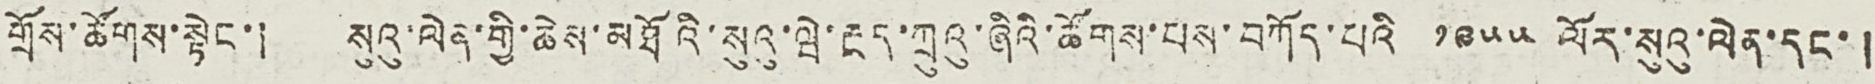གྲོས་ཚོགས་སྟེང་། སུའུ་ལེན་གྱི་ཆེས་མཐོའི་སུའུ་ཝེ་རྔད་ཀྲུའུ་ཞིའི་ཚོགས་པས་བཀོད་པའི ༡༩༥༥ ལོར་སུའུ་ལེན་དང་།
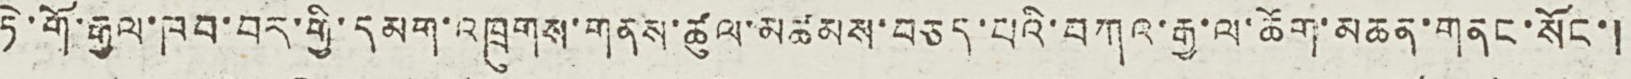ཏེ་གོ་རྒྱལ་ཁབ་བར་གྱི་དམག་འཁྲུགས་གནས་ཚུལ་མཚམས་བཅད་པའི་བཀའ་རྒྱ་ལ་ཆོག་མཆན་གནང་སོང་།
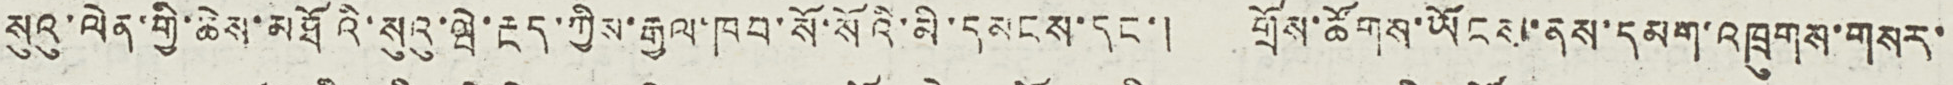སུའུ་ལེན་གྱི་ཆེས་མཐོའི་སུའུ་ཝེ་རྔད་ཀྱིས་རྒྱལ་ཁབ་སོ་སོའི་མི་དམངས་དང་། གྲོས་ཚོགས་ཡོངས་ནས་དམག་འཁྲུགས་གསར་
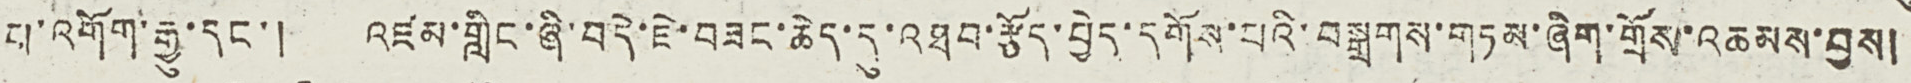པ་འགོག་རྒྱུ་དང་། འཛམ་གླིང་ཞི་བདེ་ཇེ་བཟང་ཆེད་དུ་འཐབ་རྩོད་བྱེད་དགོས་པའི་བསྒྲགས་གཏམ་ཞིག་གྲོས་འཆམས་བྱས།
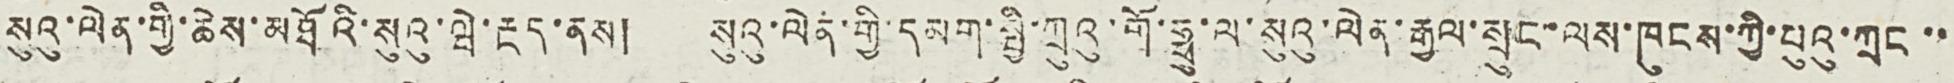སུའུ་ལེན་གྱི་ཆེས་མཐོའི་སུའུ་ཝེ་རྔད་ནས། སུའུ་ལེན་གྱི་དམག་སྤྱི་ཀྲུའུ་གོ་ཧྥུ་ལ་སུའུ་ལེན་རྒྱལ་སྲུང་ལས་ཁུངས་ཀྱི་པུའུ་ཀྲང་་
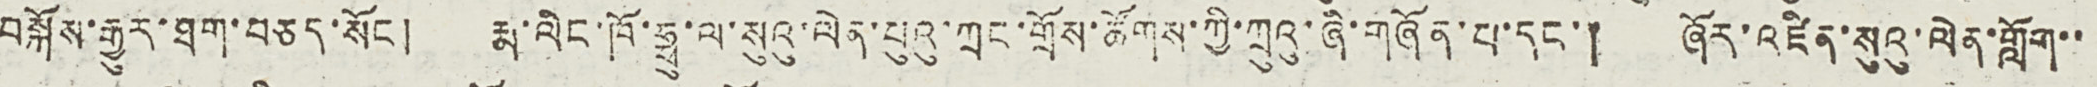བསྐོས་རྒྱུར་ཐག་བཅད་སོང ། རྨ་ལིང་ཁོ་ཧྥུ་ལ་སུའུ་ལེན་པུའུ་ཀྲང་གྲོས་ཚོགས་ཀྱི་ཀྲུའུ་ཞི་གཞོན་པ་དང་། ཞོར་འཛིན་སུའུ་ལེན་གློག་་
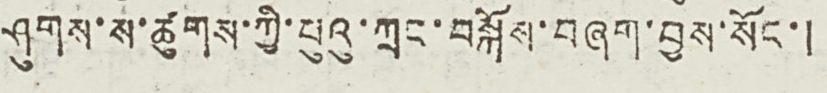ཤུགས་ས་ཚུགས་ཀྱི་པུའུ་ཀྲང་བསྐོས་བཞག་བྱས་སོང་།
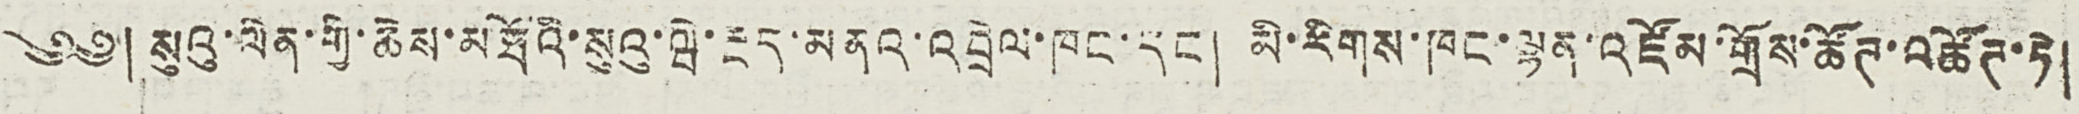༄༅། སུའུ་ལེན་གྱི་ཆེས་མཐོའི་སུའུ་ཝེ་རྔད་མནའ་འབྲེལ་ཁང་དང། མི་རིགས་ཁང་ལྷན་འཛོམ་གྲོས་ཚོཊ་འཚོཊ་ཏེ།
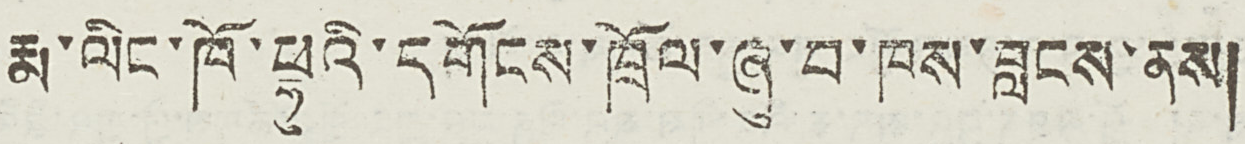རྨ་ལིང་ཁོ་ཧྥུའི་དགོངས་ཁྲོལ་ཞུ་བ་ཁས་བླངས་ནས།
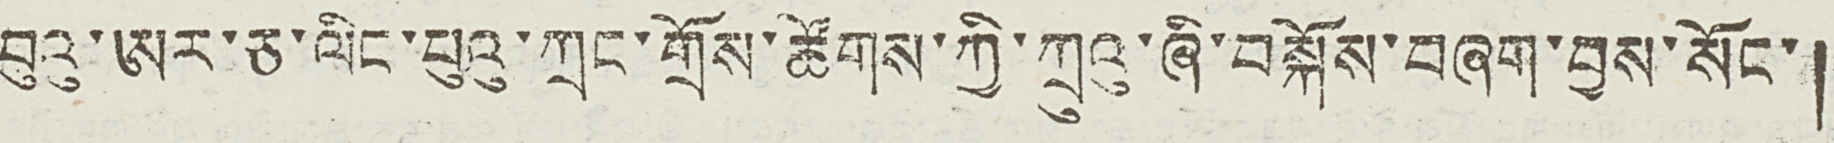བུའུ་ཨར་ཅ་ལིང་པུའུ་ཀྲང་གྲོས་ཚོགས་ཀྱི་ཀྲུའུ་ཞི་བསྐོས་བཞག་བྱས་སོང་།
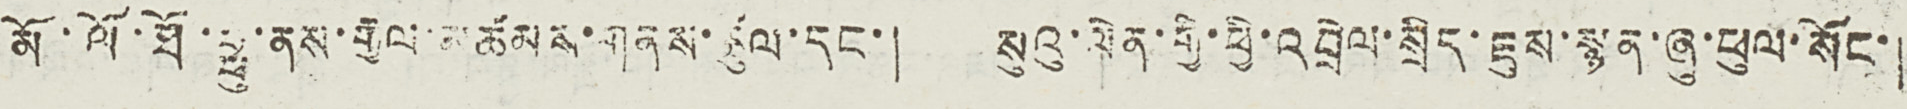མོ་ལོ་ཐོ་ཧྥུ་ནས་རྒྱལ་མཚོམས་གནས་ཚུལ་དང་། སུའུ་ལེན་གྱི་ཕྱི་འབྲེལ་སྲིད་ཇུས་སྙན་ཞུ་ཕུལ་སོང་།
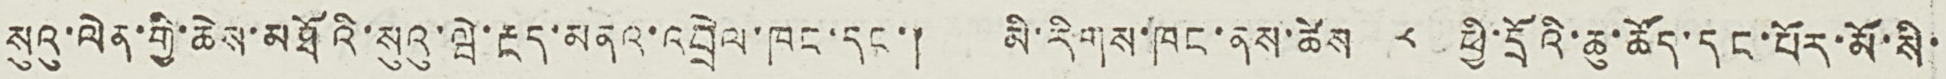སུའུ་ལེན་གྱི་ཆེས་མཐོའི་སུའུ་ཝེ་རྔད་མནའ་འབྲེལ་ཁང་དང་། མི་རིགས་ཁང་ནས་ཚེས ༨ ཕྱི་དྲོའི་ཆུ་ཚོད་དང་པོར་མོ་སི་
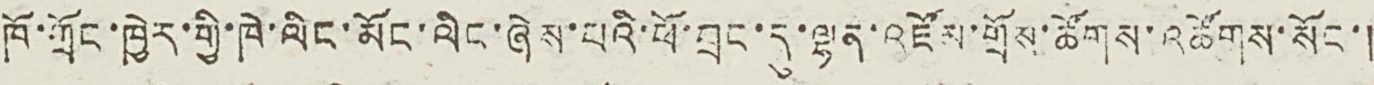ཁོ་གྲོང་ཁྱེར་གྱི་ཁེ་ལིང་མོང་ལིང་ཞེས་པའི་ཕོ་བྲང་དུ་ལྷན་འཛོམ་གྲོས་ཚོགས་འཚོགས་སོང་།
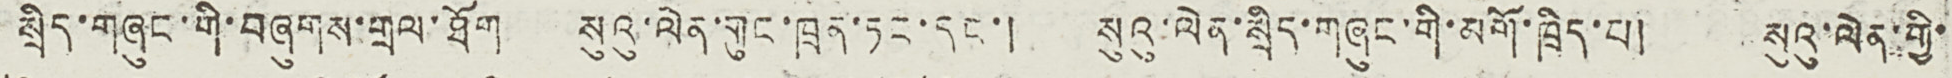སྲིད་གཞུང་གི་བཞུགས་གྲལ་ཐོག སུའུ་ལེན་གུང་ཁྲན་ཏང་དང་། སུའུ་ལེན་སྲིད་གཞུང་གི་མགོ་ཁྲིད་པ། སུའུ་ལེན་གྱི་
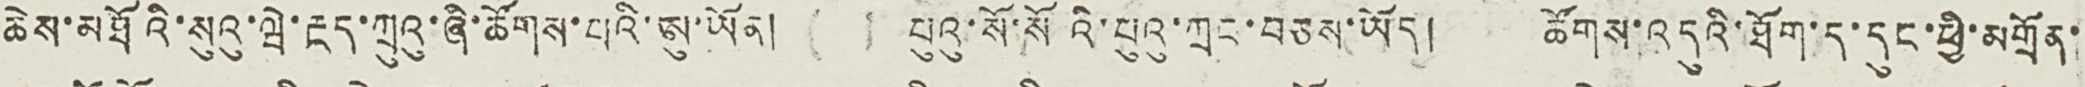ཆེས་མཐོའི་སུའུ་ཝེ་རྔད་ཀྲུའུ་ཞི་ཚོགས་པའི་ཨུ་ཡོན། པུའུ་སོ་སོའི་པུའུ་ཀྲང་བཅས་ཡོད། ཚོགས་འདུའི་ཐོག་ད་དུང་ཕྱི་མགྲོན་
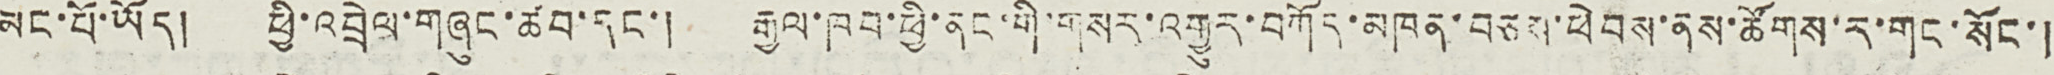མང་པོ་ཡོད། ཕྱི་འབྲེལ་གཞུང་ཚབ་དང་། རྒྱལ་ཁབ་ཕྱི་ནང་གི་གསར་འགྱུར་བཀོད་མཁན་བཅས་ཕེབས་ནས་ཚོགས་ར་གང་སོང་།
